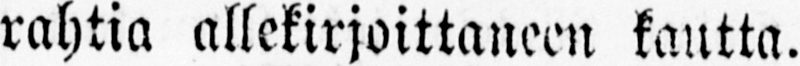rahtia allekirjoittaneen kautta.
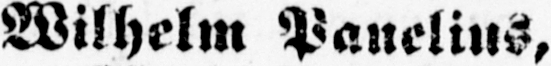Wilhelm Panelius,
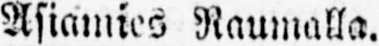Asiamies Raumalla.
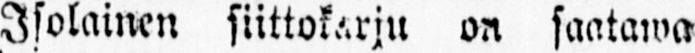Isolainen siittokarju on saatawa
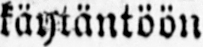käytäntöön
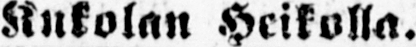Kukolan Heikolla.
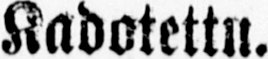Kadotettu.
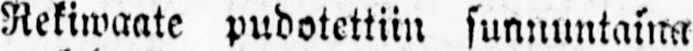Rekiwaate pudotettiin sunnuntaina
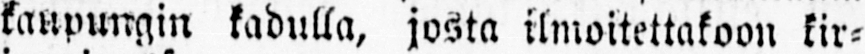kaupungin kadulla, josta ilmoitettakoon kir-
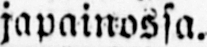japainossa.
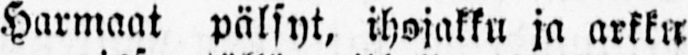Harmaat pälsyt, ihojakku ja arkku
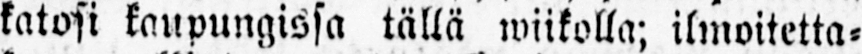katosi kaupungissa tällä wiikolla; ilmoitetta-
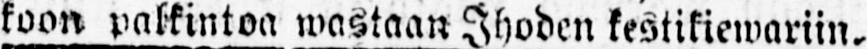koon palkintoa wastaan Ihoden kestikiewariin.
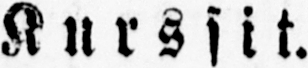Kurssit.
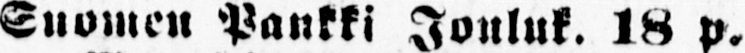Suomen Pankki jouluk. 18 p.
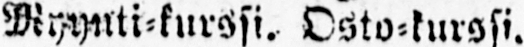Myyniti-kurssi. Osto-kurssi.
